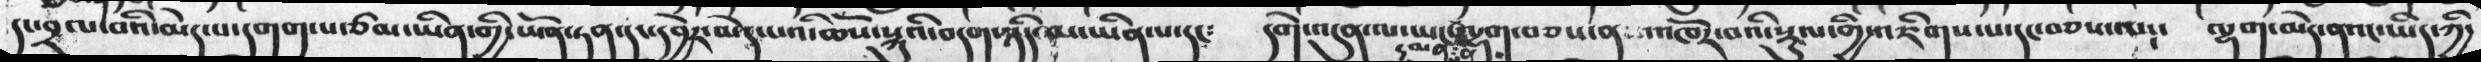དང་བྲལ་བའི་མེད་པ་དགག་པ་ཙམ་ཡིན་གྱི་ཡོན་ཏན་དང་དབྱེར་མེད་པའི་ཆོས་སྐུའི་བདག་ཉིད་མ་ཡིན་པ་དང༴   དགེ་འདུན་ལ་ཡང་དམན་པ་ལྷག་བཅས་ན  ་འཁོར་བའི་སྡུལ་གྱི་འཇིགས་པ་དང་བཅས་ལ༴་    ལྷག་མེད་ནའང་ཡིད་ཀྱི་
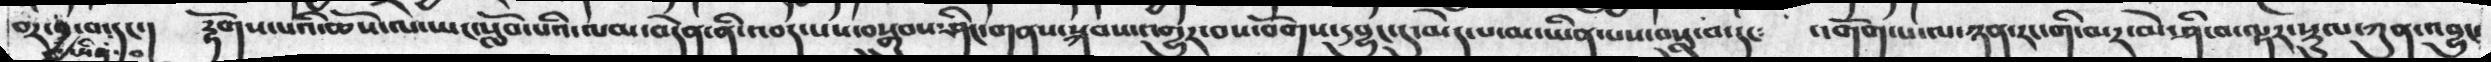བར་བྱ་བ་དང་།   རྟོགས་པའི་ཆོས་ལ་ཡང་སློབ་པའི་ལམ་བདེན་ནི་འབད་པས་བསྒྲུབས་ཤིང་གནས་སྐབས་འགྱུར་བས་བོགས་དབྱུང་དུ་མེད་པ་མ་ཡིན་པས་བསླུ་བ་དང་    འགོག་པ་ལ་ཉན་རང་གི་མར་མེ་ཤི་བ་ལྟར་སྡུལ་ཀུན་འབྱུང་
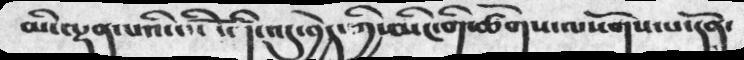མི་ལྡན་པའི་དངོས་འདིའི་འདུ་བྱེད་ཀྱི་མིང་གི་ཚོགས་ལསོགས་པ་དོན་
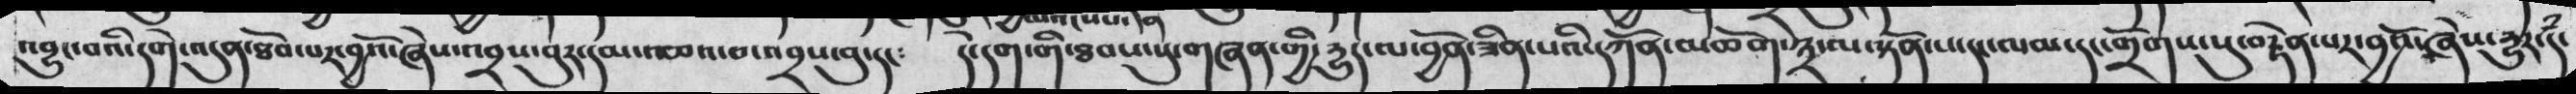འབྱུང་བའི་དདགེ་འདུན་ཐོབ་པར་བྱའོ་ཞེས་པ་འབྲས་བུར་དམ་བཅའ་བ་འབྲས་བུ་དང་   དེ་དག་གི་ཐབས་སུ་གཞན་གྱི་དྱུད་ལ་བྱོན་ཟིན་པའི་དཀོན་མཆོག་༣་ལ་སྟོན་པ་དང་ལམ་དང་གྲོགས་སུ་བརྟེན་པར་བྱའོ་ཞེས་རྱུར་དཾ་
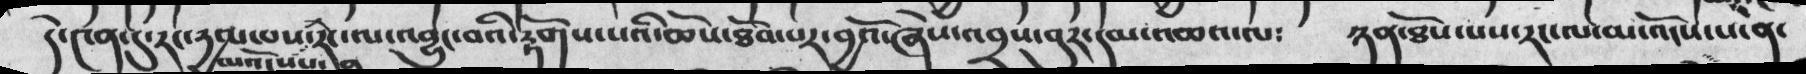དེ་༤ན་དུ་རང་དྱལ་པས་མའོངཔས་རིང་ལ་འབྱུང་བའི་རྟོགས་པའི་ཆོས་ཐོས་པར་བྱའོ་ཞེས་འབྲས་བུར་དམ་འཆའ་ལ༴   ཉན་ཐོས་པས་རང་ལ་མ་འོངས་པ་ན་
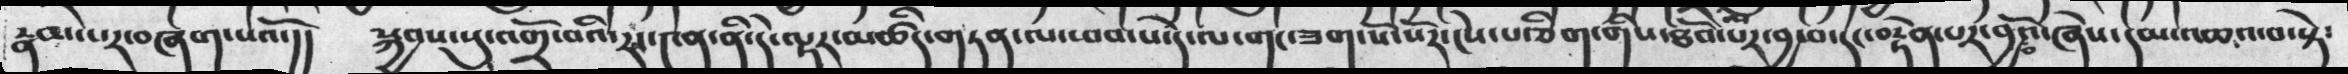རྣམ་པར་བཞག་པའོ་།།   སྐྱབས་སུ་་འགྲོ་བའི་རང་༤ན་ནི་དེ་ལྟར་མཚིད་གཏན་ལ་ཕབ་པ་དེ་ལ་གང་ཟག་སོ་སོར་ངེས་པ་ཅིག་གིས་ཐོབ་པར་བྱ་བ་དང་བརྟེན་པར་བྱ་བའོ་ཞེས་དམ་འཆའ་བ་སྟེ་
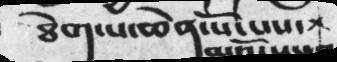ཐེག་པ་ཆེན་པོ་པས་
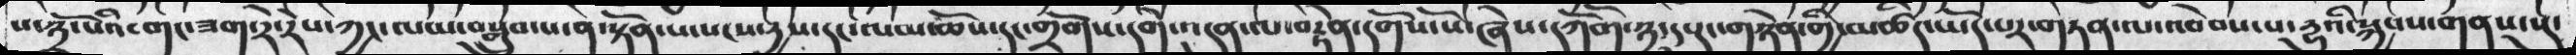པ་༣་པོའི་གང་ཟག་རེ་རེས་ཀྱང་ལམ་བསྒྲུབ་པ་ན་སྟོན་པ་སངས་དྱས་དང་ལམ་ཆོས་དང་གྲོགས་དགེ་འདུན་ལ་བརྟེན་དགོས་སོ་ཞེས་དཀོགོ་༣་དུ་རང་གཉེན་གྱི་མཚིད་ཡོད་པར་གཏན་ལ་འབེབས་པ་དྱུའི་སྐྱབས་གནས་སུ་
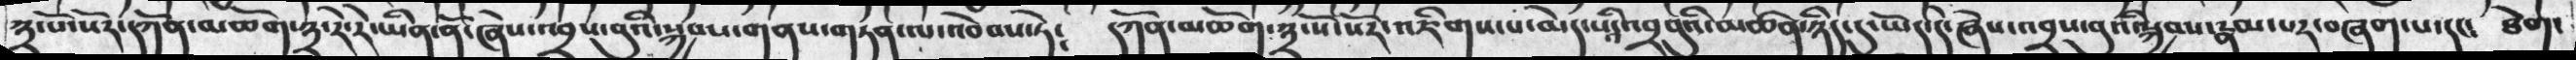༣་པོ་སོར་དཀོན་མཆོག་༣་རེ་རེ་ཡིན་ནོ་ཞེས་འབྲས་བུའི་སྐྱབས་གནས་གཏན་ལ་འབེབས་ཏེ༴  དཀོན་མཆོག་༣་སོ་སོར་འཇིགས་པ་མེ་པའི་འབྲབུའི་མཚན་ཉིད་དུ་ཡོད་དེ་ཞེས་འབྲས་བུའི་སྐྱབས་རྣམ་པར་བཞག་པ་དང་  ཐེག་
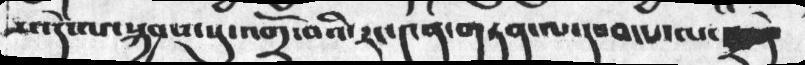ས་དེ་ལ་སྐྱབས་སུ་འགྲོ་བའི་རང་༤ན་གཏན་ལ་དབབ་པ་ལ་
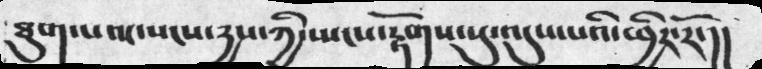ཐུག་ས་འང་སངས་དྱས་ཀྱི་སྤངས་རྟོགས་སུ་འདུས་པའི་ཕྱིར་རོ་།།
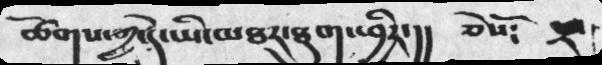ཚོགས་གྱང་དེ་ཡི་མཐར་ཐུག་ཕྱིར་།།   ཅེསོ༴   ཕྲ་
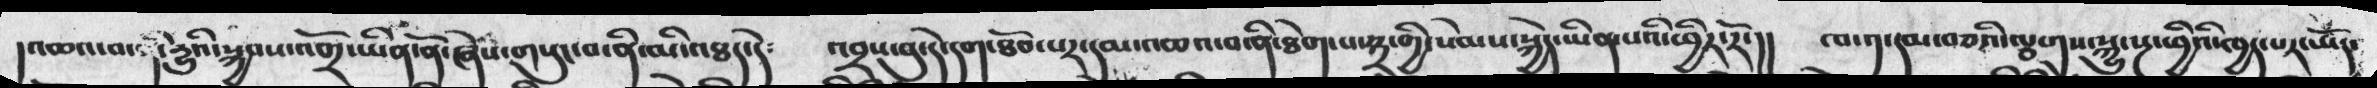།འཆའ་བ་ནི་དྱུའི་སྐྱབས་འགྲོ་ཡོན་ནོ་ཞེས་གསུང་བ་ནི་མི་འཐད་དེ༴  འབྲས་བུ་དེ་དག་ཐོབ་པར་དམ་འཆའ་བ་ནི་ཐེག་པ་༣་གྱི་སེམས་སྐྱེད་ཡིན་པའི་ཕྱིར་རོ་།།  ཁ་༡་དམ་བཅའི་ལྕགས་སྐྱུ་སྔ་ཕྱིའི་ཁྱད་པར་ཡོད་
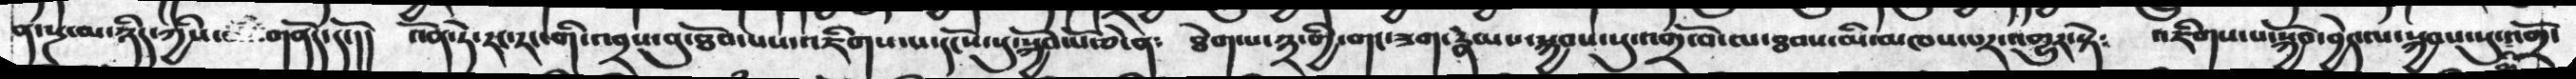ན་སྔ་མ་ཉིད་ཀྱིས་  གནོད་དོ་།།  འོན་ཏེ་རང་རང་གི་འབྲས་བུ་ཐོབ་པས་འཇིགས་པ་དངོས་སུ་སྐྱོབ་པོ་ཆེ་ན༴  ཐེག་པ་༣་གྱི་གང་ཟག་རྣམས་སྐྱབས་སུ་འགྲ་བོ་ལ་ཐམས་མི་མཁས་པར་འགྱུར་སྟེ༴  འཇིགས་པ་སྐྱོབ་བྱེད་ལ་སྐྱབས་སུ་འགྲོ་
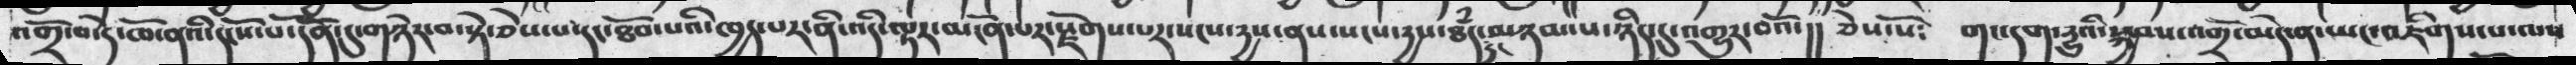འགྲོ་བ་དེ་ཁོ་ནའི་དངོས་པོ་དོན་དུ་གཉེར་བ་སྟེ་ཅེས་པ་དང་ཐོབ་པའི་ཁྱད་པར་ནི་འདི་ལྟར་མངོན་པར་རྫོགས་པར་སངས་དྱས་ནས་སངས་དྱས་ཐཾད་དུ་མཉམ་པ་ཉིད་དུ་འགྱུར་བའོ་།།  ཅེས་སོ༴  གང་དག་དྱུའི་སྐྱབས་འགྲོ་མེད་ན་ཡང་འཇིགས་པ་ལས
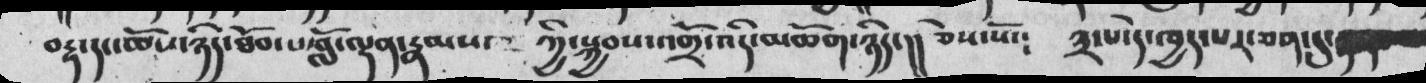བརྡ་དང་ཆོས་ཉིད་ཐོབ་པ་བློ་ལྡན་རྣམས་ཀྱི་སྐྱབས་འགྲོ་འདི་མཆོག་ཉིད་།།  ཅེས་སོ་༴  ༣་པ་དེ་ཁྱད་པར་ཅན་དུ་
